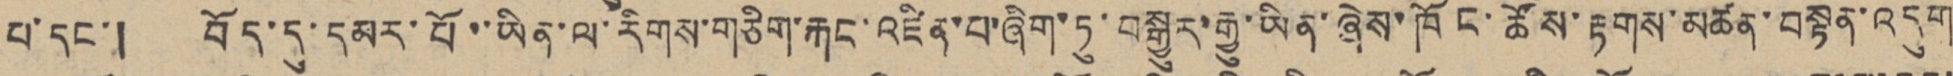པ་དང་། བོད་དུ་དམར་པོ་་ཡིན་ལ་རིགས་གཅིག་རྐང་འཛིན་པ་ཞིག་ཏུ་བསྒྱུར་རྒྱུ་ཡིན་ཞེས་ཁོང་ཚོས་རྟགས་མཚན་བསྟན་འདུག
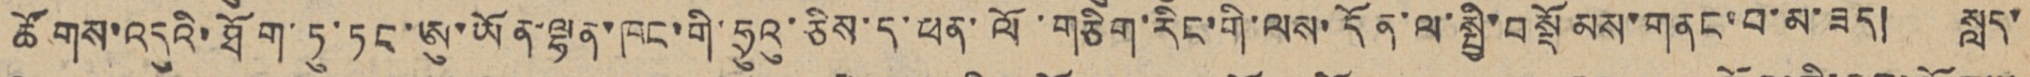ཚོགས་དུའི་ཐོག་ཏུ་ཏང་ཨུ་ཡོན་ལྷན་ཁང་གི་ཧྲུའུ་ཅིས་ད་ཕན་ལོ་གཅིག་རིང་གི་ལས་དོན་ལ་སྤྱི་བསྡོམས་གནང་བ་མ་ཟད། སླད་
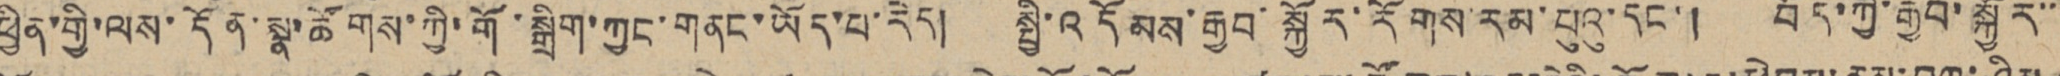ཕྱིན་གྱི་ལས་དོན་སྣ་ཚོགས་ཀྱི་གོ་སྒྲིག་ཀྱང་གནང་ཡོད་པ་རེད། སྤྱི་འདོམས་རྒྱབ་སྐྱོར་རོགས་རམ་པུའུ་དང་། བོད་ཀྱི་རྒྱབ་སྐྱོར་་་
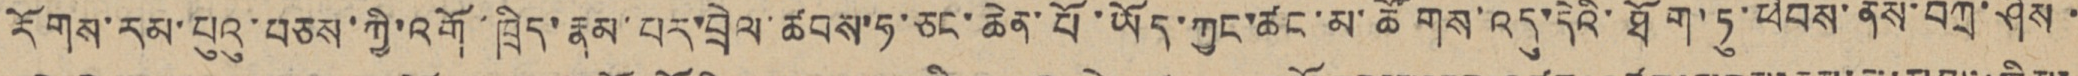རོགས་རམ་པུའུ་བཅས་ཀྱི་འགོ་ཁྲིད་རྣམ་པར་བྲེལ་ཚབས་ཧ་ཅང་ཆེན་པོ་ཡོད་ཀྱང་ཚང་མ་ཚོགས་འདུ་དེའི་ཐོག་ཏུ་ཕེབས་ནས་བཀྲ་ཤིས་
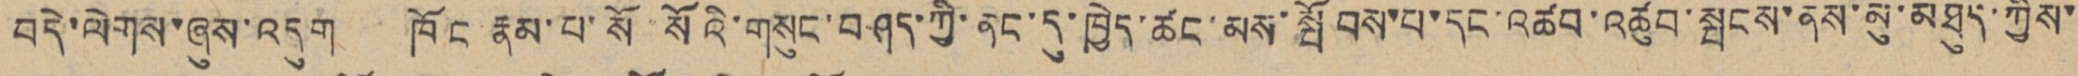བདེ་ལེགས་ཞུས་འདུག ཁོང རྣམ་པ་སོ་སོའི་གསུང་བཤད་ཀྱི་ནང་དུ་ཁྱེད་ཚང་མས་སྤོབས་པ་དང་འཚབ་འཚུབ་སྤངས་ནས་མུ་མཐུད་ཀྱིས་
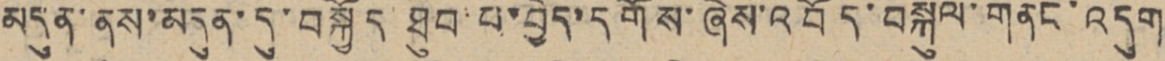མདུན་ནས་མདུན་དུ་བསྐྱོད ཐུབ་པ་བྱེད་དགོས་ཞེས་འབོད་བསྐུལ་གནང་འདུག
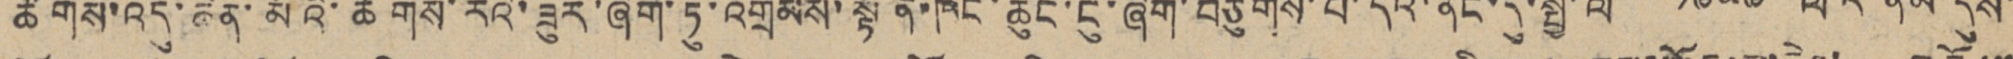ཚོགས་འདུ་ཆེན་མོའི་ཚོགས་རའི་ཟུར་ཞིག་ཏུ་འགྲེམས་སྟོན་ཁང་ཆུང་ངུ་ཞིག་བཙུགས་པ་དེའི་ནང་དུ་སྤྱི་ལོ་ ༡༩༥༩ ལོའི་ནམ་དུས་
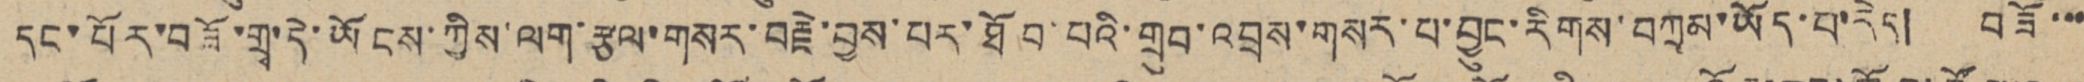དང་པོར་བཟོ་གྲྭ་དེ་ཡོངས་ཀྱིས་ལག་རྩལ་གསར་བརྗེ་བྱས་པར་ཐོབ་པའི་གྲུབ་འབྲས་གསར་པ་བྱུང་རིགས་བཀྲམ་ཡོད་པ་རེད། བཟོ་་་
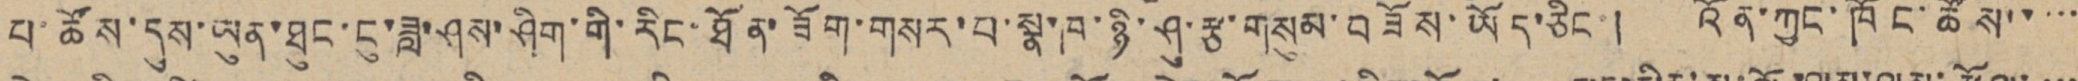པ་ཚོས་དུས་ཡུན་ཐུང་ངུ་ཟླ་ཤས་ཤིག་གི་རིང་ཐོན་ཟོག་གསར་པ་སྣ་ཁ་ཉི་ཤུ་རྩ་གསུམ་བཟོས་ཡོད་ཅིང་། འོན་ཀྱང་ཁོང་ཚོས་་་་་
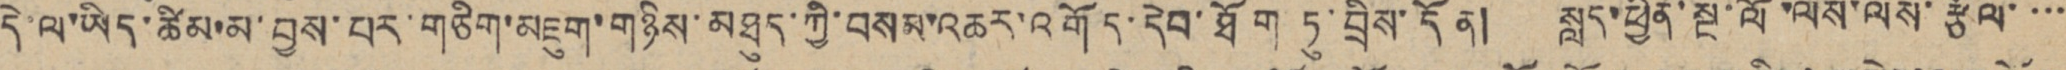དེ་ལ་ཡིད་ཚིམ་མ་བྱས་པར་གཅིག་མཇུག་གཉིས་མཐུད་ཀྱི་བསམ་འཆར་འགོད་དེབ་ཐོག ཏུ་བྲིས་དོན། སླད་ཕྱིན་སྔ་ལོ་ལས་ལས་རྩོལ་་་་
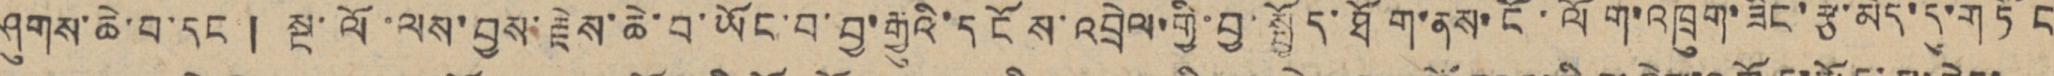ཤུགས་ཆེ་བ་དང་། སྔ་ལོ་ལས་བྱས་རྗེས་ཆེ་བ་ཡོང་བ་བྱ་རྒྱུའི་དངོས་འབྲེལ་གྱི་བྱ་སྤྱོད་ཐོག་ནས་ངོ་ལོག་འཁྲུག་ཟིང་རྩ་མེད་དུ་གཏོང
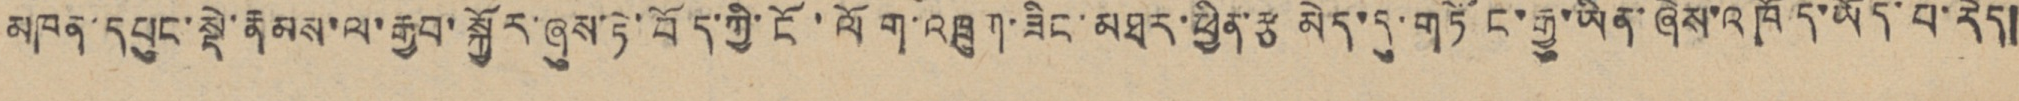མཁན་དཔུང་སྡེ་རྣམས་ལ་རྒྱབ་སྐྱོར་ཞུས་ཏེ་བོད་ཀྱི་ངོ་ལོག་འཁྲུག་ཟིང་མཐར་ཕྱིན་རྩ མེད་དུ་གཏོང་རྒྱུ་ཡིན་ཞེས་འཁོད་ཡོད་པ་རེད།
